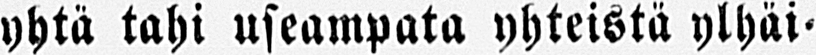yhtä tahi useampata yhteistä ylhäi-
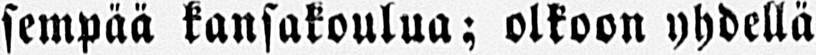sempää kansakoulua; olkoon yhdellä
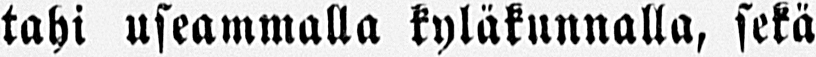tahi useammalla kyläkunnalla, sekä
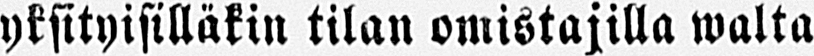yksityisilläkin tilan omistajilla walta
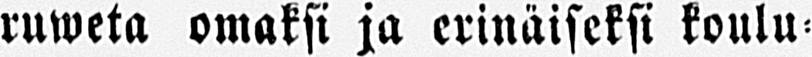ruweta omaksi ja erinäiseksi koulu-
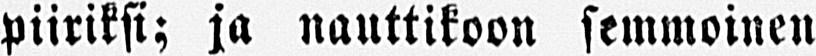piiriksi; ja nauttikoon semmoinen
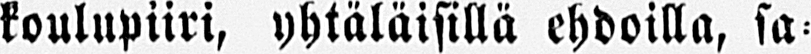koulupiiri, yhtäläisillä ehdoilla, sa-
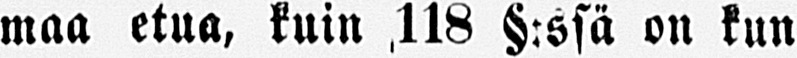maa etua, kuin 118 §:ssä on kun
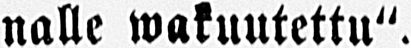nalle wakuutettu".
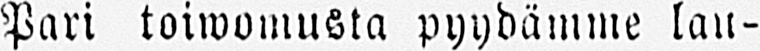Pari toiwomusta pyydämme lau-
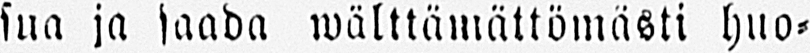sua ja saada wälttämättömästi huo-
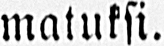matuksi.
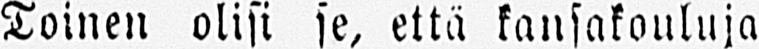Toinen olisi se, että kansakouluja
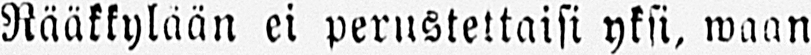Rääkkylään ei perustettaisi yksi, waan
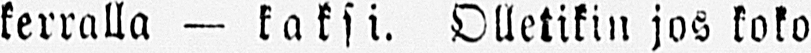kerralla — kaksi. Olletikin jos koko
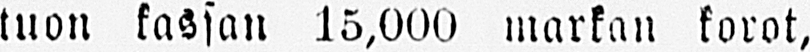tuon kassan 15,000 markan korot,
